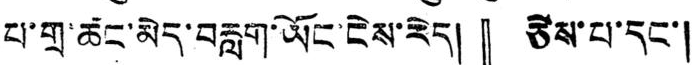པ་གྲ་ཚང་མེད་བརླག་ཡོང་ངེས་རེད།』 ཅེས་པ་དང་།
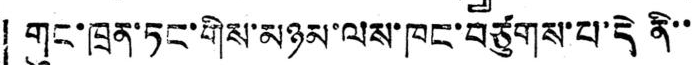「གུང་ཁྲན་ཏང་གིས་མཉམ་ལས་ཁང་བཙུགས་པ་དེ ནི་་
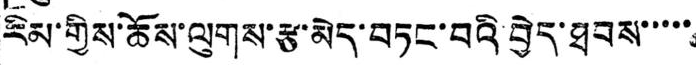རིམ་གྱིས་ཆོས་ལུགས་རྩ་མེད་བཏང་བའི་བྱེད་ཐབས་་་་་
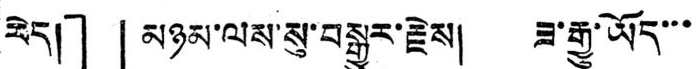རེད།」「མཉམ་ལས་སུ་བསྒྱུར་རྗེས། ཟ་རྒྱུ་ཡོད་་་
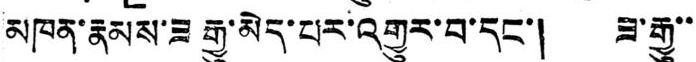མཁན་རྣམས་ཟ རྒྱུ་མེད་པར་འགྱུར་བ་དང་། ཟ་རྒྱུ་་
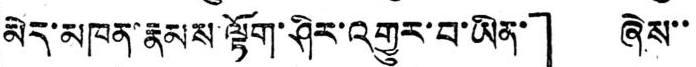མེད་མཁན་རྣམས་ལྟོག་ཤིར་འགྱུར་བ་ཡིན་」 ཞེས་་
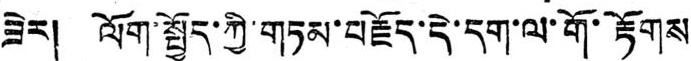ཟེར། ལོག་སྤྱོད་ཀྱི་གཏམ་བརྗོད་དེ་དག་ལ་གོ་རྟོགས
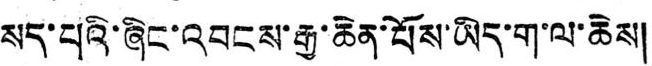སད་པའི་ཞིང་འབངས་རྒྱ་ཆེན་པོས་ཡིད་ག་ལ་ཆེས།
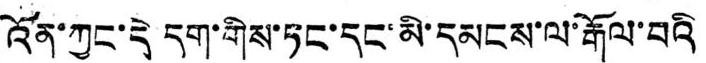འོན་ཀྱང་དེ་དག་གིས་ཏང་དང་མི་དམངས་ལ་རྒོལ་བའི
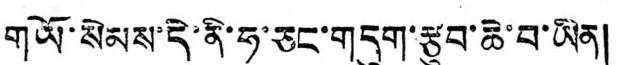གཡོ་སེམས་དེ་ནི་ཧ་ཅང་གདུག་རྩུབ་ཆེ་བ་ཡིན།
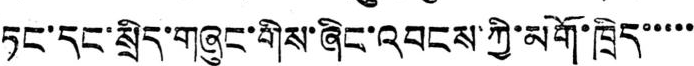ཏང་དང་སྲིད་གཞུང་གིས་ཞིང་འབངས་ཀྱི་མགོ་ཁྲིད་་་་་
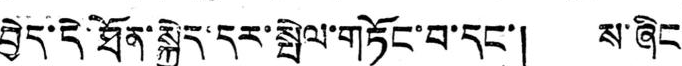བྱེད་དེ་ཐོན་སྐྱེད་དར་སྤེལ་གཏོང་བ་དང་། ས་ཞིང་
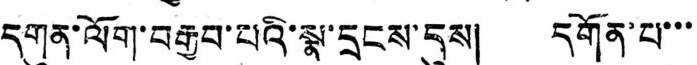དགུན་ལོག་བརྒྱབ་པའི་སྣ་དྲངས་དུས། དགོན་པ་་་
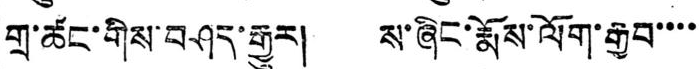གྲ་ཚང་གིས་བཤད་རྒྱུར། ས་ཞིང་རྨོས་ལོག་རྒྱབ་་་་
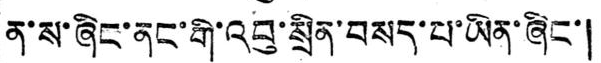ན་ས་ཞིང་ནང་གི་འབུ་སྲིན་བསད་པ་ཡིན་ཞིང་།
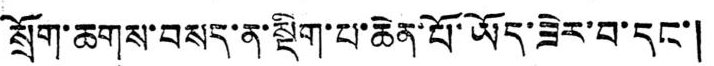སྲོག་ཆགས་བསད་ན་སྡིག་པ་ཆེན་པོ་ཡོད་ཟེར་བ་དང་།
